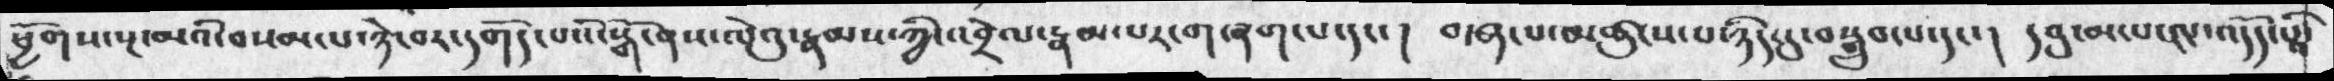ཕྱིགས་སྔ་མའི་བསམ་པ་ཉེ་བར་དགོད་པའི་སྒོ་ནས་ལེའུ་རྣམས་ཀྱི་འབྲེལ་རྣམ་པར་གཞག་པ་དང་།  བ་ག་པ་མཚུངས་པ་ཉིད་དུ་བསྒྲུབ་པ་དང་།  དབུ་མ་ལ་༤་འདོད་པའི་
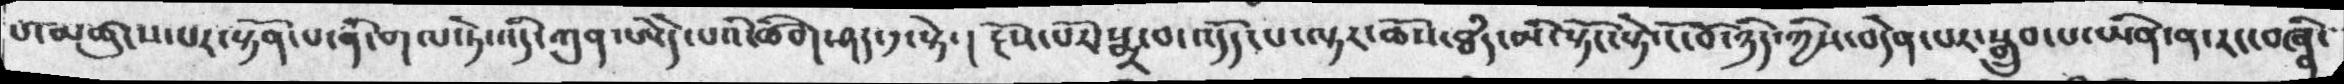པ་མཚུངས་པར་སྟོན་པ་ནི་གལ་ཏེ་འདི་ཀུན་ཨེདེ་པའི་ཚིག་ཤད་༡་སྟེ་།  རྔོས་པོར་སྨྲ་བ་འདོད་པ་ལྟར་ཆོས་ཐཾད་མི་སྟོང་སྟེ་ངོ་བོ་ཉིད་ཀྱིས་བདེན་པར་སྒྲུབ་པ་ཡིན་ན་རང་བཞིན་
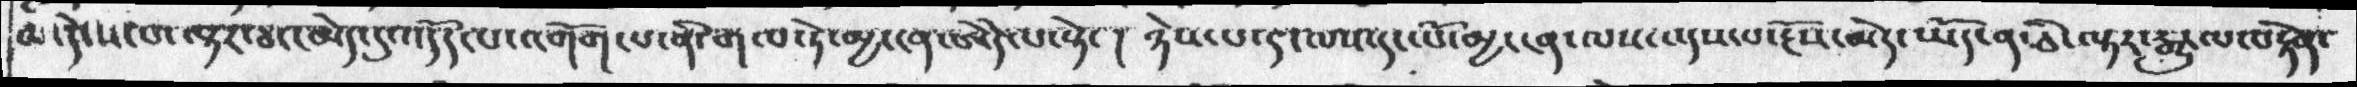མ་དེ་ས་པ་ལྟར་ཐདད་མེད་དུ་འདོད་པ་འགོག་པ་ནི་གལ་ཏེ་མྱ་ངན་ཨེེད་པ་སྟེ་། ཉེས་པ་༤་ལས་དང་པོ་མྱ་ངན་ལས་འདས་པ་རྔོས་མེད་ཡོད་ན་ཅི་ལྟར་རྒྱུ་ལ་བརྟེན་
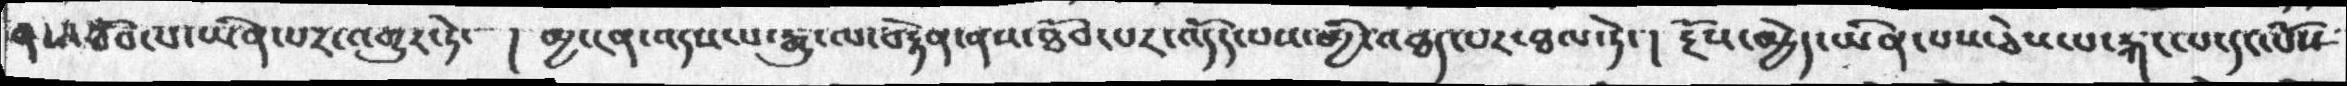ནས་ཐོབ་པ་ཡིན་པར་འགྱུར་ཏེ་།   མྱ་ངན་འདས་པ་རྒྱུ་ལ་བརྟེན་ནས་ཐོབ་པར་འདོད་པས་མྱི་འཐད་པར་ཐལ་ཏེ་།  རྔོས་མྱེད་ཡིན་པས་ཅེས་པ་རྐང་པ་དང་པོས
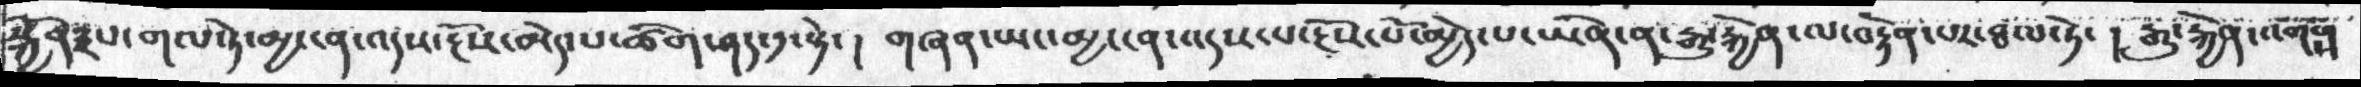སྐྱོན༣པ་གལ་ཏེ་མྱ་ངན་འདས་རྔོས་མེད་པ་ཚིག་ཤད་༡་སྟེ་།   གཞན་ཡང་མྱ་ངན་འདས་པ་རྔོས་པོ་མྱེད་པར་ཡིན་ན་རྒྱུ་རྐྱེན་ལ་བརྟེན་པར་ཐལ་ཏེ་།   རྒྱུ་རྐྱེན་འགོགས
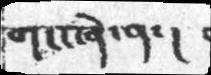གང་ཞེ་ན་།
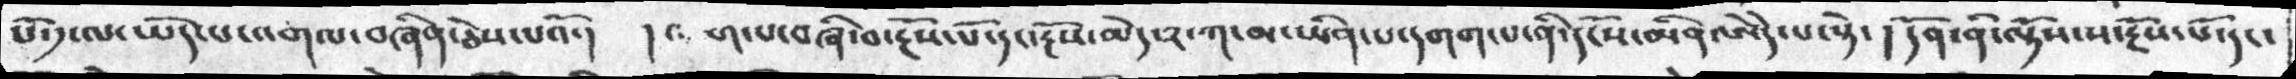པོ་༡་ལ་ཡོད་པ་འགལ་བཞིན་ཅེས་པའོ་།   །འགོག་པ་བཞི་བ་རྔོས་པོ་དང་རྔོས་མེད་༢་ཀ་མ་ཡིན་པ་དགག་པ་ནི་དངོས་མིན་ཨེདེ་པ་སྟེ་།   དོན་ནི་ལྟོས་ས་རྔོས་པོ་དང་
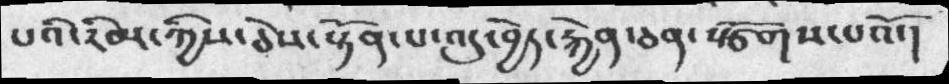པའི་རིམ་ཀྱིས་ཅེས་སྟོན་པ་འདུ་བྱེད་རྐྱེན་ཅན་སྩོགས་པའོ་།
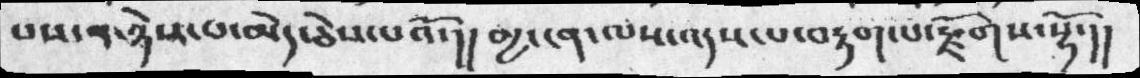པས་ན་ཉེས་པ་མེད་ཅེས་པའོ་།། མྱ་ངན་ལས་འདས་པ་བརྟག་པ་རྫོགས་སྷོ་།།
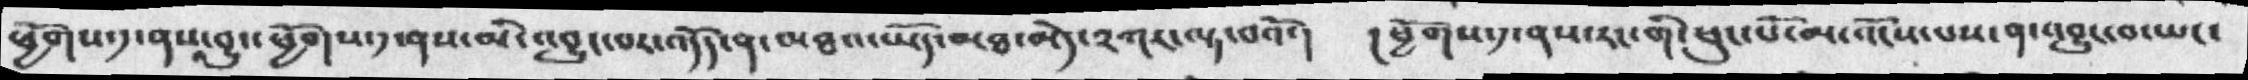ཕྱོགས་༡་ནས་བྱུང་ཕྱོགས་༡་ནས་མི་འབྱུང་པར་འདོད་ན་མཐའ་ཡོད་མཐ་མེད་༢གར་ལྟ་བའོ་།  །ཕྱོགས་༡་ནས་རང་གི་ཕུང་པོ་མ་འོངས་པས་ན་འབྱུང་བ་ཡང་
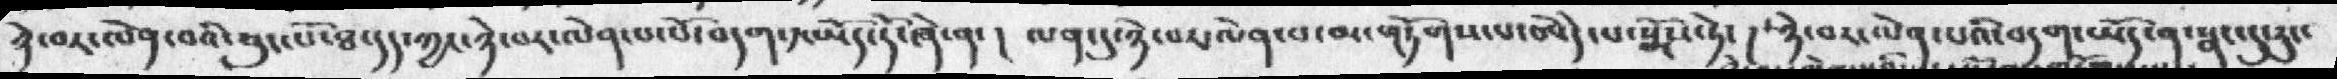ཉེ་བར་ལེན་པའི་ཕུང་པོ་ཐ་དད་ཀྱང་ཉེ་བར་ལེན་པ་པོ་བདག་༡་ཡོད་དོ་ཞེ་ན་།   ལན་དུ་ཉེ་བར་ལེན་པ་མ་གཏོགས་པ་ཨེདེ་སྨོས་ཏེ་ ། ཉེ་བར་ལེན་པའི་བདག་ཡོད་ན་སྣང་དུ་རུང་
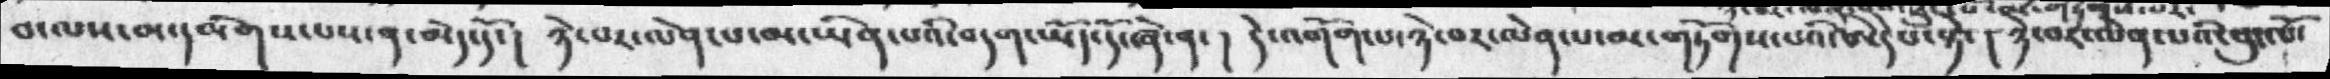བ་ལས་མ་དམིགས་པས་ན་མེད་དོ་།  ཉེ་བར་ལེན་པ་མ་ཡིན་པའི་བདག་ཡོད་དོ་ཞེ་ན་།  དེ་འགོག་པ་ཉེ་བར་ལེན་པ་མ་གཏོགས་པའི་ཨེདེ་པ་སྟེ་།  ཉེ་བར་ལེན་པའི་ཕུང་པོ་
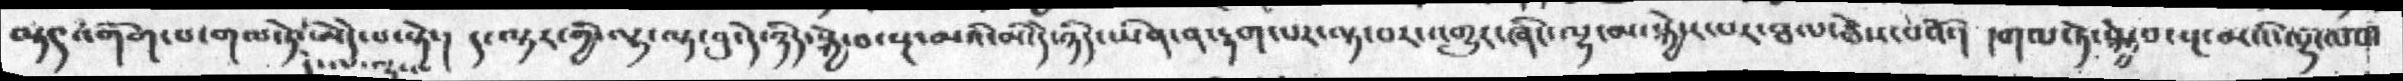ལྟར་འགོག་པ་གལ་ཏེ་ཨེདེ་པ་སྟེ་།    ད་ལྟར་གྱི་ལྷ་ལྟ་བུ་དེ་ཉིད་སྐྱེ་བ་སྔ་མའི་མི་དེ་ཉིད་ཡིན་ན་རྟག་པར་ལྟ་བར་འགྱུར་ཞིང་ལྷ་མ་སྐྱེས་པར་ཐལ་ཅེས་པའོ་།   ། གལ་ཏེ་སྐྱེ་བ་སྔ་མའི་ལྷ་ལས་
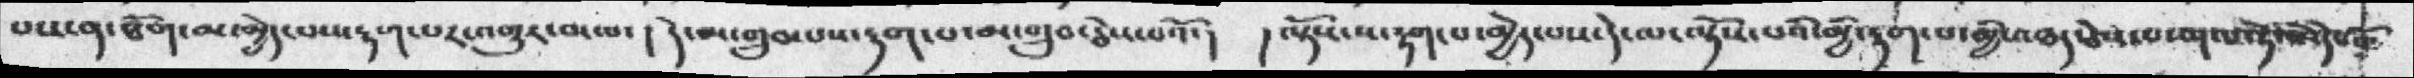པས་ན་ཐོག་མ་མྱེད་པས་རྟག་པར་འགྱུར་བ་ལ་།  དེ་མ་གྲུབ་པས་རྟག་པ་མ་གྲུབ་ཅེས་པའོ་།  །ལྟོས་ས་རྟག་པ་མྱེད་པས་དེ་ལ་ལྟོས་པའི་མྱི་རྟག་པ་མྱི་འཐཛ་ཅེས་པ་ལས་གལ་ཏེ་ཨེདེ་པའོ
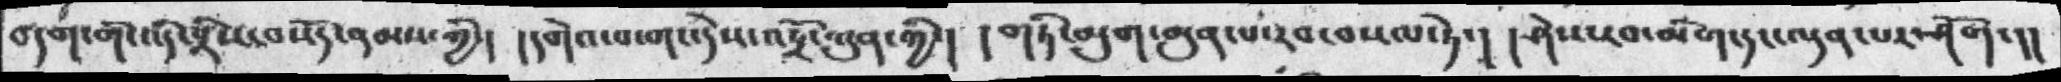བདག་གི་འདི་བྲིས་བསོད་ནམས་ཀྱི་། དགེའ་བ་གང་དེས་འདྲོ་ཀུན་ཀྱི་། །གཏི་མུག་མུན་པ་རབ་བསལ་ཏེ་། །ཤེས་རབ་མིག་དང་ལྡན་པར་ཤོག་།།
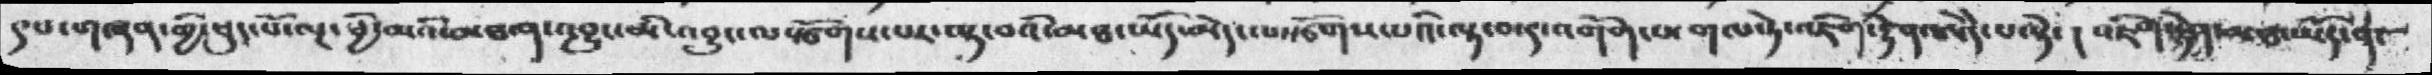༩་པ་གཞན་གྱི་ཕུང་པོ་ལྔ་ཕྱི་མིའི་མཐ་ན་འབྱུང་མི་འབྱུང་ལ་སྩོགས་པར་ལྟ་བའི་མཐ་ཡོད་མེད་ལསྩོགས་པའི་ལྟ་བ་༤་འགོག་པ་གལ་ཏེ་འཇིག་རྟེན་ཨེདེ་པ་སྟེ་།  འཇིག་རྟེན་མཐ་ཡོད་ན་
